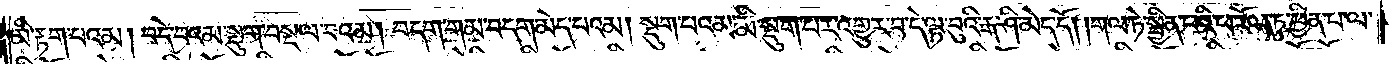མི་རྟག་པའམ། བདེ་བའམ་སྡུག་བསྔལ་བའམ། བདག་གམ་བདག་མེད་པའམ། སྡུག་པའམ་མི་སྡུག་པར་འགྱུར་བ་དེ་ལྟ་བུའི་རྒ་ཤི་མེད་དོ། །གལ་ཏེ་སྦྱིན་པའི་ཕ་རོལ་ཏུ་ཕྱིན་པ་ལ་
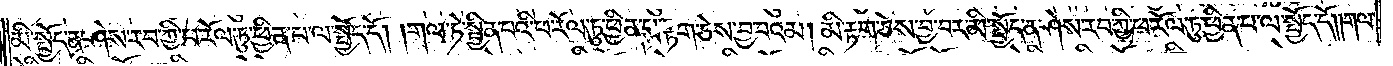མི་སྤྱོད་ན་ཤེས་རབ་ཀྱི་ཕ་རོལ་ཏུ་ཕྱིན་པ་ལ་སྤྱོད་དོ། །གལ་ཏེ་སྦྱིན་པའི་ཕ་རོལ་ཏུ་ཕྱིན་པ་རྟག་ཅེས་བྱ་བའམ། མི་རྟག་ཅེས་བྱ་བར་མི་སྤྱོད་ན་ཤེས་རབ་ཀྱི་ཕ་རོལ་ཏུ་ཕྱིན་པ་ལ་སྤྱོད་དོ། །གལ་
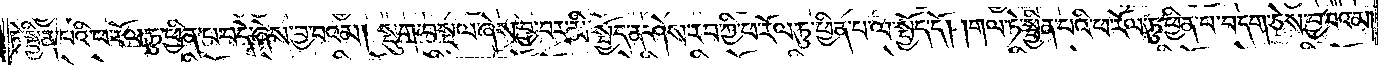ཏེ་སྦྱིན་པའི་ཕ་རོལ་ཏུ་ཕྱིན་པ་བདེ་ཞེས་བྱ་བའམ། སྡུག་བསྔལ་ཞེས་བྱ་བར་མི་སྤྱོད་ན་ཤེས་རབ་ཀྱི་ཕ་རོལ་ཏུ་ཕྱིན་པ་ལ་སྤྱོད་དོ། །གལ་ཏེ་སྦྱིན་པའི་ཕ་རོལ་ཏུ་ཕྱིན་པ་བདག་ཅེས་བྱ་བའམ།
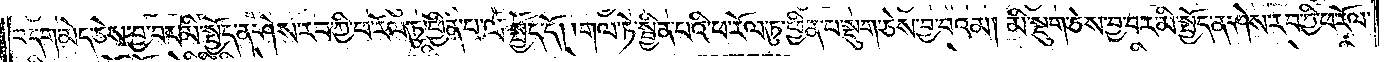བདག་མེད་ཅེས་བྱ་བར་མི་སྤྱོད་ན་ཤེས་རབ་ཀྱི་ཕ་རོལ་ཏུ་ཕྱིན་པ་ལ་སྤྱོད་དོ། །གལ་ཏེ་སྦྱིན་པའི་ཕ་རོལ་ཏུ་ཕྱིན་པ་སྡུག་ཅེས་བྱ་བའམ། མི་སྡུག་ཅེས་བྱ་བར་མི་སྤྱོད་ན་ཤེས་རབ་ཀྱི་ཕ་རོལ་
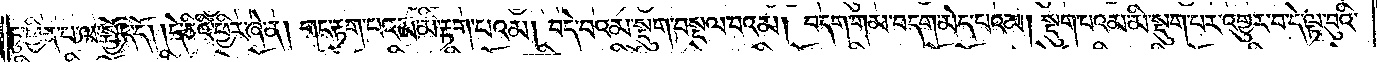ཏུ་ཕྱིན་པ་ལ་སྤྱོད་དོ། །དེ་ཅིའི་ཕྱིར་ཞེ་ན། གང་རྟག་པའམ་མི་རྟག་པའམ། བདེ་བའམ་སྡུག་བསྔལ་བའམ། བདག་གམ་བདག་མེད་པའམ། སྡུག་པའམ་མི་སྡུག་པར་འགྱུར་བ་དེ་ལྟ་བུའི་
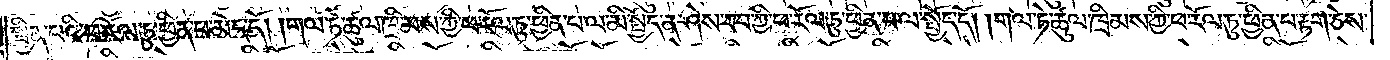སྦྱིན་པའི་ཕ་རོལ་ཏུ་ཕྱིན་པ་མེད་དོ། །གལ་ཏེ་ཚུལ་ཁྲིམས་ཀྱིས་ཕ་རོལ་ཏུ་ཕྱིན་པ་ལ་མི་སྤྱོད་ན་ཤེས་རབ་ཀྱི་ཕ་རོལ་ཏུ་ཕྱིན་པ་ལ་སྤྱོད་དོ། །གལ་ཏེ་ཚུལ་ཁྲིམས་ཀྱི་ཕ་རོལ་ཏུ་ཕྱིན་པ་རྟག་ཅེས་
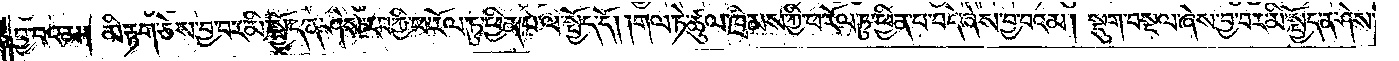བྱ་བའམ། མི་རྟག་ཅེས་བྱ་བར་མི་སྤྱོད་ན་ཤེས་རབ་ཀྱི་ཕ་རོལ་ཏུ་ཕྱིན་པ་ལ་སྤྱོད་དོ། །གལ་ཏེ་ཚུལ་ཁྲིམས་ཀྱི་ཕ་རོལ་ཏུ་ཕྱིན་པ་བདེ་ཞེས་བྱ་བའམ། སྡུག་བསྔལ་ཞེས་བྱ་བར་མི་སྤྱོད་ན་ཤེས་
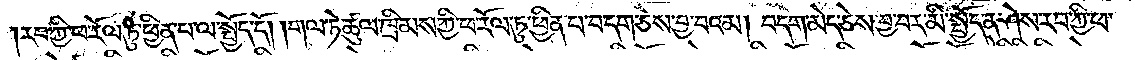རབ་ཀྱི་ཕ་རོལ་ཏུ་ཕྱིན་པ་ལ་སྤྱོད་དོ། །གལ་ཏེ་ཚུལ་ཁྲིམས་ཀྱི་ཕ་རོལ་ཏུ་ཕྱིན་པ་བདག་ཅེས་བྱ་བའམ། བདག་མེད་ཅེས་བྱ་བར་མི་སྤྱོད་ན་ཤེས་རབ་ཀྱི་ཕ་
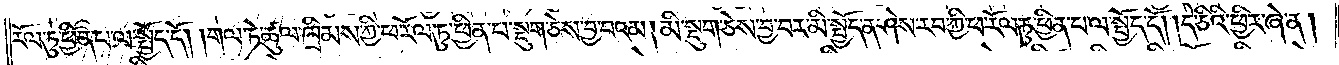རོལ་ཏུ་ཕྱིན་པ་ལ་སྤྱོད་དོ། །གལ་ཏེ་ཚུལ་ཁྲིམས་ཀྱི་ཕ་རོལ་ཏུ་ཕྱིན་པ་སྡུག་ཅེས་བྱ་བའམ། མི་སྡུག་ཅེས་བྱ་བར་མི་སྤྱོད་ན་ཤེས་རབ་ཀྱི་ཕ་རོལ་ཏུ་ཕྱིན་པ་ལ་སྤྱོད་དོ། །དེ་ཅིའི་ཕྱིར་ཞེ་ན།
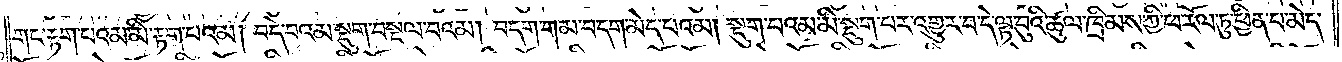གང་རྟག་པའམ་མི་རྟག་བ་པའམ། བདེ་བའམ་སྡུག་བསྔལ་བའམ། བདག་གམ་བདག་མེད་པའམ། སྡུག་པའམ་མི་སྡུག་པར་འགྱུར་བ་དེ་ལྟ་བུའི་ཚུལ་ཁྲིམས་ཀྱི་ཕ་རོལ་ཏུ་ཕྱིན་པ་མེད་
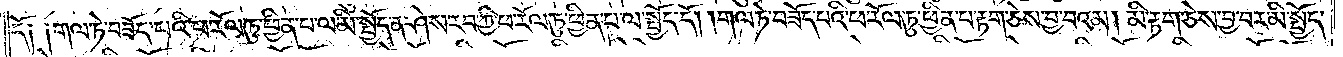དོ༑ ༑གལ་ཏེ་བཟོད་པའི་ཕ་རོལ་ཏུ་ཕྱིན་པ་ལ་མི་སྤྱོད་ན་ཤེས་རབ་ཀྱི་ཕ་རོལ་ཏུ་ཕྱིན་པ་ལ་སྤྱོད་དོ། །གལ་ཏེ་བཟོད་པའི་ཕ་རོལ་ཏུ་ཕྱིན་པ་རྟག་ཅེས་བྱ་བའམ། མི་རྟག་ཅེས་བྱ་བར་མི་སྤྱོད་
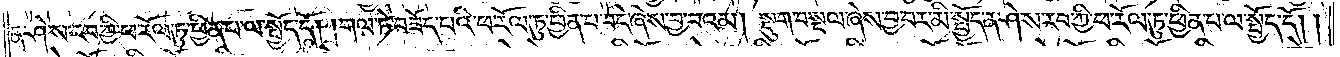ན་ཤེས་རབ་ཀྱི་ཕ་རོལ་ཏུ་ཕྱིན་པ་ལ་སྤྱོད་དོ། །གལ་ཏེ་བཟོད་པའི་ཕ་རོལ་ཏུ་ཕྱིན་པ་བདེ་ཞེས་བྱ་བའམ། སྡུག་བསྔལ་ཞེས་བྱ་བར་མི་སྤྱོད་ན་ཤེས་རབ་ཀྱི་ཕ་རོལ་ཏུ་ཕྱིན་པ་ལ་སྤྱོད་དོ། །
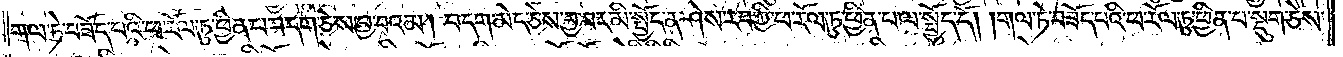གལ་ཏེ་བཟོད་པའི་ཕ་རོལ་ཏུ་ཕྱིན་པ་བདག་ཅེས་བྱ་བའམ། བདག་མེད་ཅེས་བྱ་བར་མི་སྤྱོད་ན་ཤེས་རབ་ཀྱི་ཕ་རོལ་ཏུ་ཕྱིན་པ་ལ་སྤྱོད་དོ། །གལ་ཏེ་བཟོད་པའི་ཕ་རོལ་ཏུ་ཕྱིན་པ་སྡུག་ཅེས་
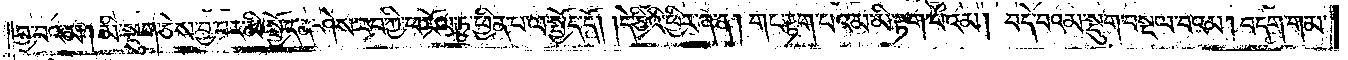བྱ་བའམ། མི་སྡུག་ཅེས་བྱ་བར་མི་སྤྱོད་ན་ཤེས་རབ་ཀྱི་ཕ་རོལ་ཏུ་ཕྱིན་པ་ལ་སྤྱོད་དོ། །དེ་ཅིའི་ཕྱིར་ཞེ་ན། གང་རྟག་པའམ་མི་རྟག་པའམ། བདེ་བའམ་སྡུག་བསྔལ་བའམ། བདག་གམ་
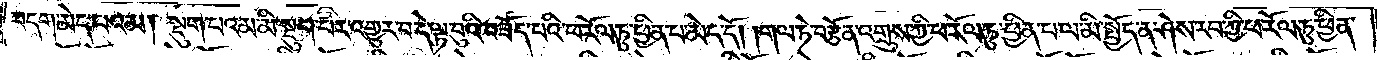བདག་མེད་པའམ། སྡུག་པའམ་མི་སྡུག་པར་འགྱུར་བ་དེ་ལྟ་བུའི་བཟོད་པའི་ཕ་རོལ་ཏུ་ཕྱིན་པ་མེད་དོ། །གལ་ཏེ་བརྩོན་འགྲུས་ཀྱི་ཕ་རོལ་ཏུ་ཕྱིན་པ་ལ་མི་སྤྱོད་ན་ཤེས་རབ་ཀྱི་ཕ་རོལ་ཏུ་ཕྱིན་
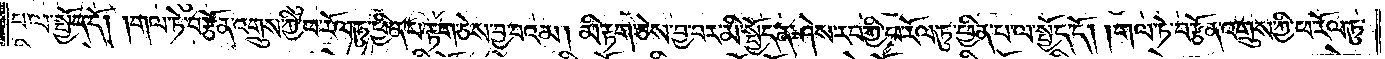པ་ལ་སྤྱོད་དོ། །གལ་ཏེ་བརྩོན་འགྲུས་ཀྱི་ཕ་རོལ་ཏུ་ཕྱིན་པ་རྟག་ཅེས་བྱ་བའམ། མི་རྟག་ཅེས་བྱ་བར་མི་སྤྱོད་ན་ཤེས་རབ་ཀྱི་ཕ་རོལ་ཏུ་ཕྱིན་པ་ལ་སྤྱོད་དོ། །གལ་ཏེ་བརྩོན་འགྲུས་ཀྱི་ཕ་རོལ་ཏུ་
